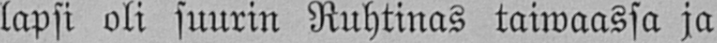lapsi oli suurin Ruhtinas taiwaassa ja
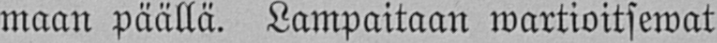maan päällä. Lampaitaan wartioitsewat
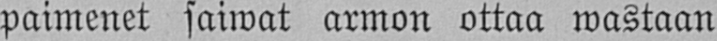paimenet saiwat armon ottaa wastaan
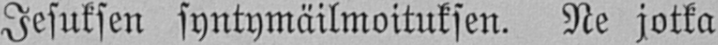Jesuksen syntymäilmoituksen. Ne jotka
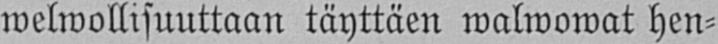welwollisuuttaan täyttäen walwowat hen-
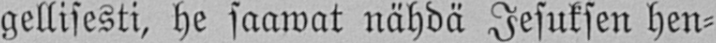gellisesti, he saawat nähdä Jesuksen hen-
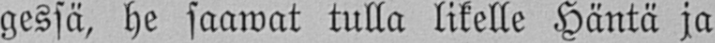gessä, he saawat tulla likelle Häntä ja
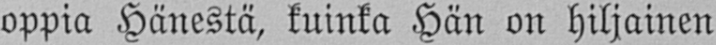oppia Hänestä, kuinka Hän on hiljainen
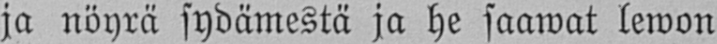ja nöyrä sydämestä ja he saawat lewon
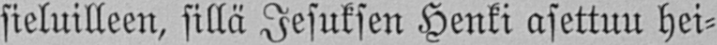sieluilleen, sillä Jesuksen Henki asettuu hei-
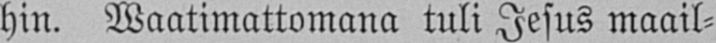hin. Waatimattomana tuli Jesus maail-
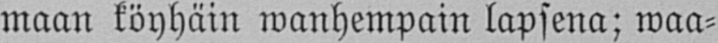maan köyhäin wanhempain lapsena; waa-
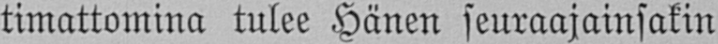timattomina tulee Hänen seuraajainsakin
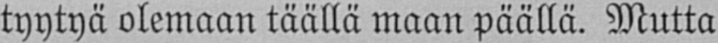tyytyä olemaan täällä maan päällä. Mutta
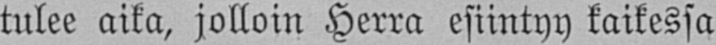tulee aika, jolloin Herra esiintyy kaikessa
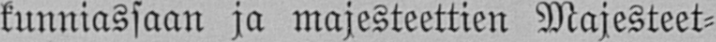kunniassaan ja majesteettien Majesteet-
